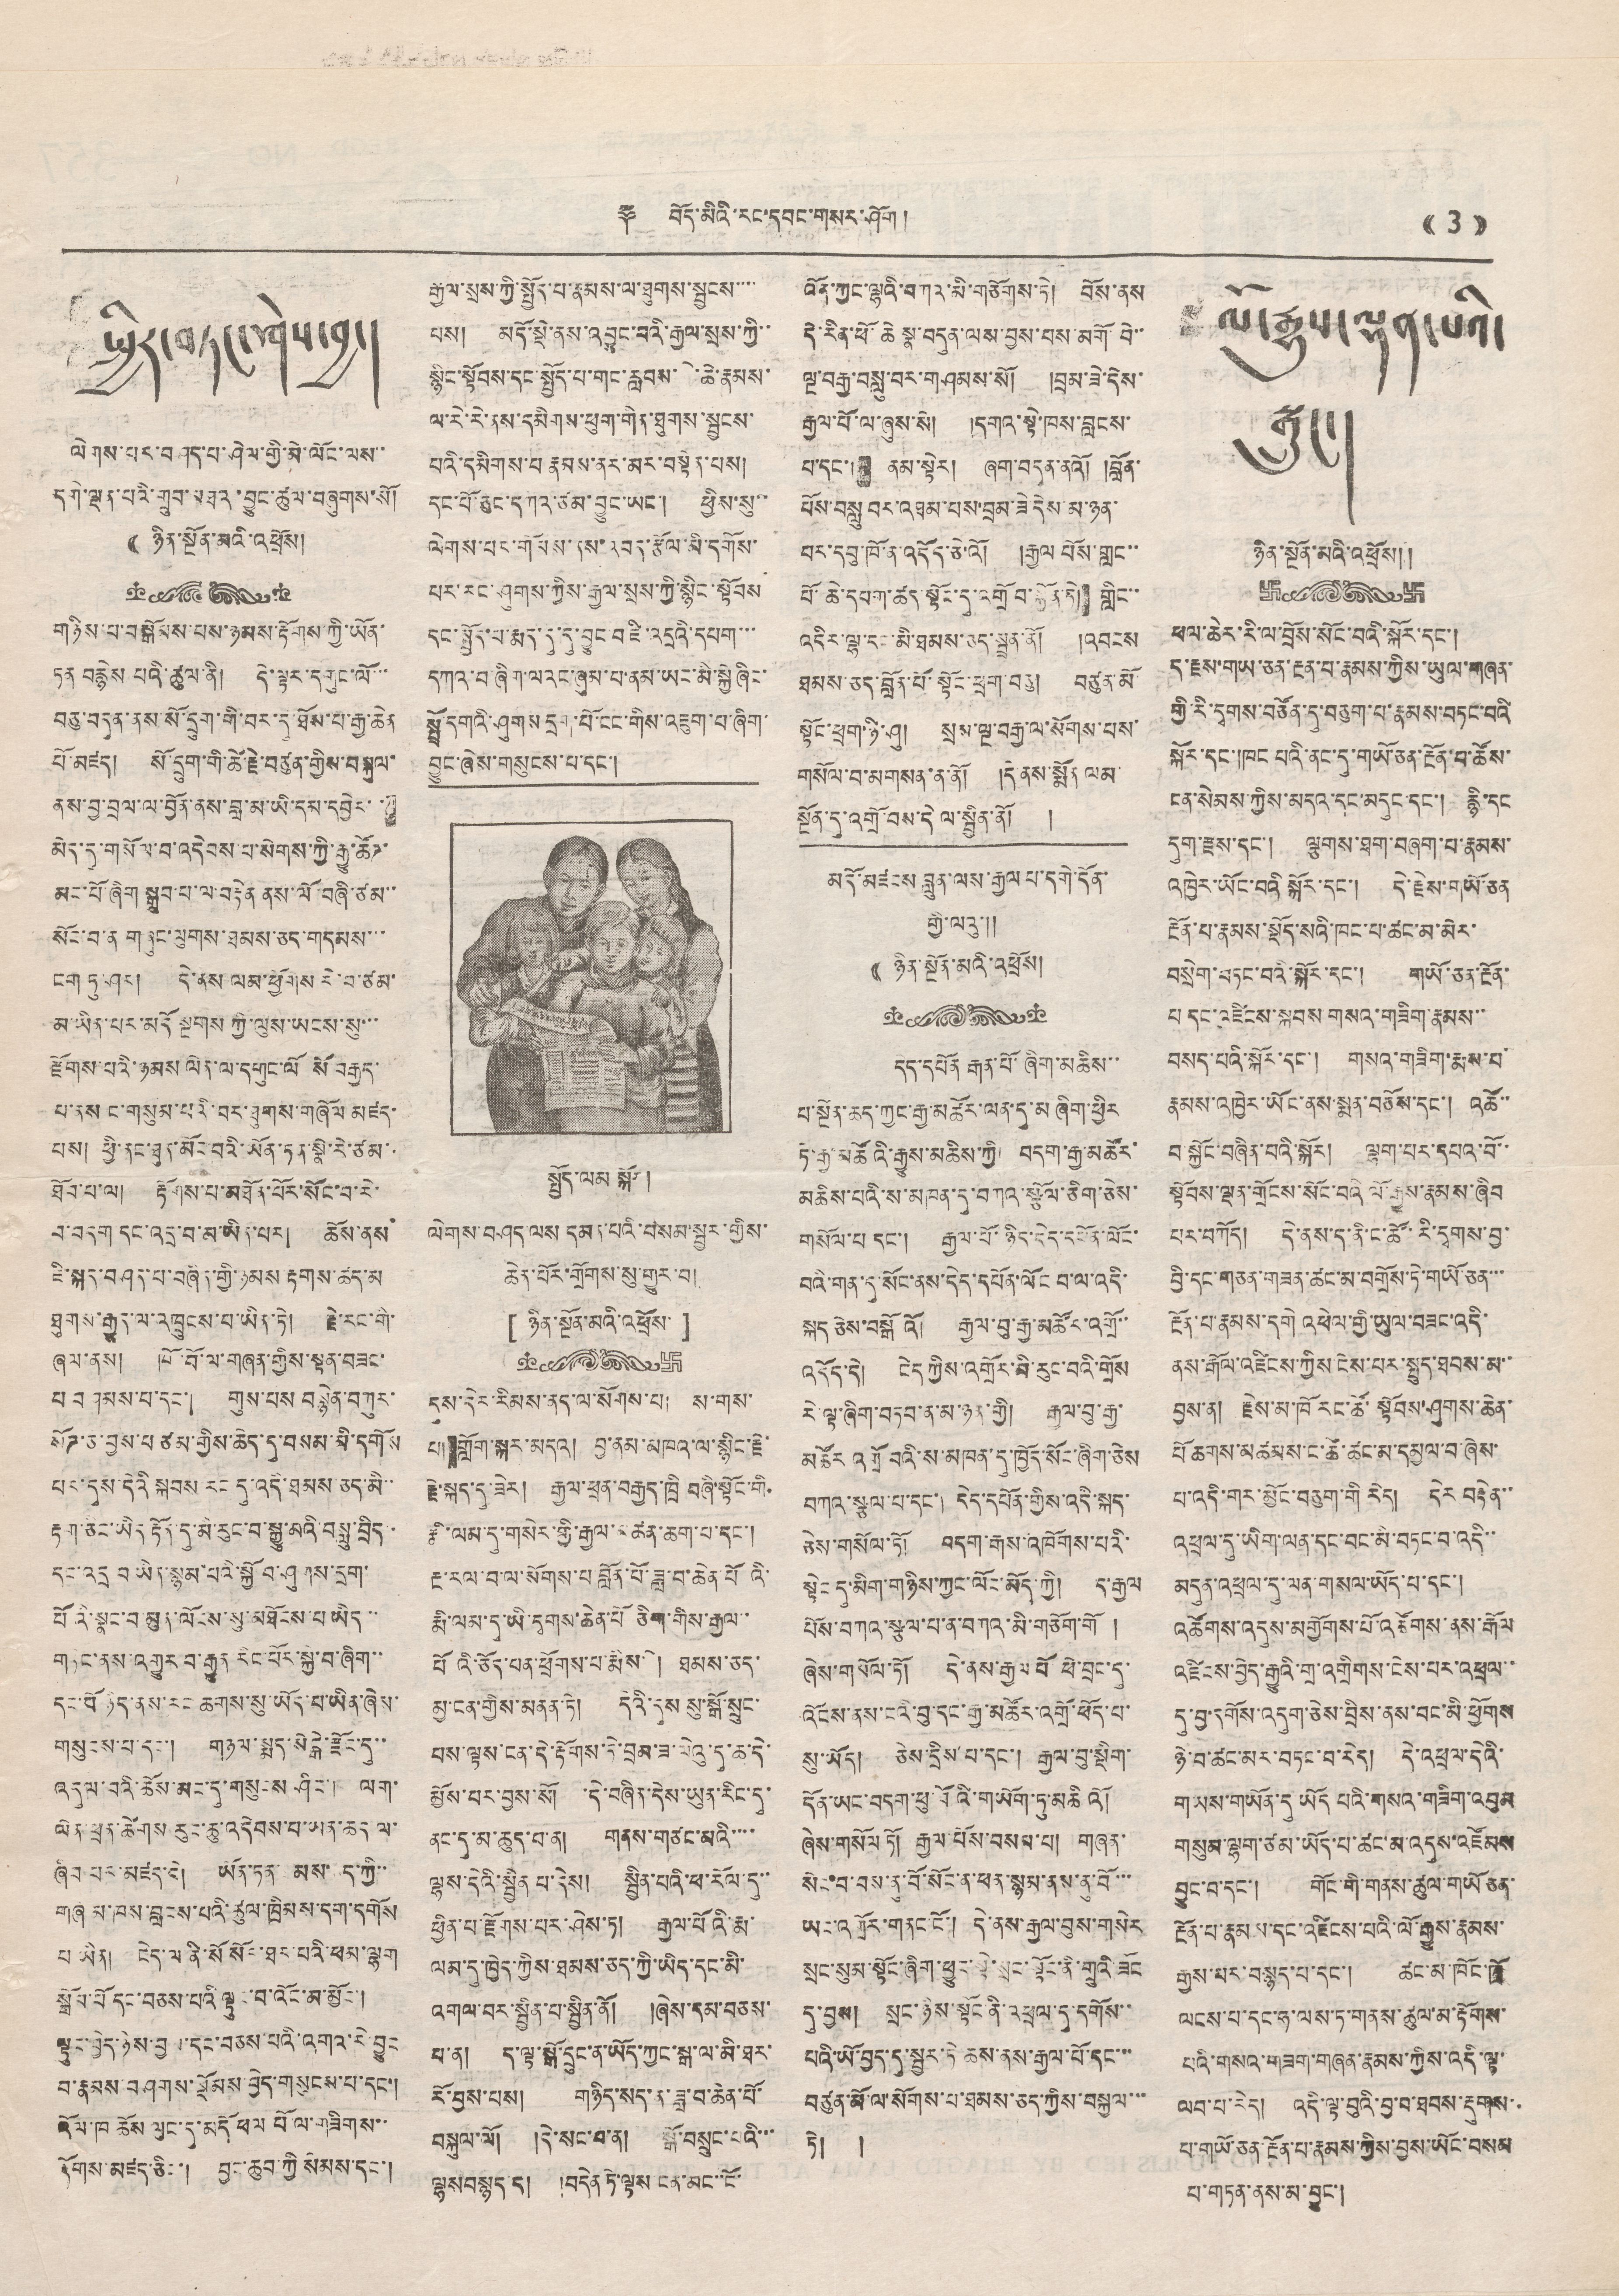༈ བོད་མིའི་རང་དབང་གསར་ཤོག ། (( 3 ))
སྤྱིར་བཏང་ཤེས་བྱ།
ལེགས་པར་བཤད་ཤེལ་གྱི་མེ་ལོང་ལས་་
དགེ་ལྡན་པའི་གྲུབ་མཐའ་བྱུང་ཚུལ་བཞུགས་སོ།
(( ཉིན་སྔོན་མའི་འཕྲོས།
གཉིས་པ་བསྒོམས་པས་ཉམས་རྟོགས་ཀྱི་ཡོན་
ཏན བརྙེད པའི་ཚུལ་ནི། དེ་ལྟར་དགུང་ལོ་་་
བཅུ་བདུན་ནས་སོ་དྲུག་གི་བར་དུ་ཐོས་པ་རྒྱ་ཆེན
པོ་མཛད། སོ་དྲུག་གི་ཚེ་རྗེ་བཙུན་གྱིས་བསྐུལ་
ནས་བྱ་བྲལ་ལ་བྱོན་ནས་བླ་མ་ཡི་དམ་དབྱེར་་
མེད་དུ་གསོལ་བ་འདེབས་པ་སེགས་ཀྱི་རྒྱུ་ཚོཌ་
མང་པོ་ཞིག སྒྲུབ་པ་ལ་བརྟེན ནས་ལོ་བཞི་ཙམ་་
སོང་བ་ན གཞུང་ལུགས་ཐམས་ཅད་གདམས་་་
ངག ཏུ་ཤར། དེ་ནས ལམ་ཕྱོགས རེ་བ་ཙམ་
མ་ཡིན་པར་མདོ སྔགས ཀྱི་ལུས་ཡངས་སུ་་་
རྫོགས་པའི་ཉམས ལེན་ལ་དགུང་ལོ སོ་བརྒྱད་
པ་ནས ང་གསུམ་པའི་བར་ཐུགས་གཞོལ མཛད་
པས། ཕྱི་ནང་ཐུན་མོང་བའི་ཡོན་ཏན་སྣེ་རེ་ཙམ་
ཐོབ་པ་ལ། རྟོགས་པ་མཐོན་པོར་སོང་བ་རེ་
བ་བདག དང་འདྲ་བ་མ་ཡིན་པར། ཆོས་ནས
ཇི་སྐད་བཤད་པ་བཞིན་གྱི་ཉམས རྟགས་ཚད་མ
ཐུགས་རྒྱུན་ལ་འཁྲུངས་པ་ཡིན་ཏེ། རྗེ་རང་གི་
ཞལ་ནས། ཁོ་བོ་ལ་གཞན་གྱིས་སྟན་བཟང་
པ བཤམས་པ་དང་། གུས་པས བསྙེན་བཀུར་
སོཌ་ཅ་བྱས་པ ཙམ་གྱིས་ཆེད་དུ་བསམ་མི་དགོས
པར་དུས་དེའི སྐབས རང་དུ་འདི་ཐམས་ཅད་མི་་
རྟག་ཅིང་ཡིད རྟོན་དུ་མི་རུང་བ་སྒྱུ་མའི་བསླུ་བྲིད
དང་འདྲ བ་ཡིད་སྙམ་པའི་སྐྱོ བ་ཤུགས་དྲག་
པོའི་སྣང་བ་མུན་ལོངས་སུ་མཐོངས་པ ཡིད་་
གཏོང་ནས་འགྱུར བ་རྒྱུན རིང་པོར་སྐྱེ་བ་ཞིག་་
དང་པོ ཉིད་ནས་རང ཆགས་སུ་ཡོད་པ་ཡིན་ཞེས་
གསུངས་པ་དང་། གཉལ་སྨད་སེངྒེ་རྫོང་དུ་་
འདུལ་བའི་ཆོས་མང་དུ་གསུངས ཤིང་། ལག་
ལེན་ཕྲན་ཚེགས རུང་ཆུ་འདེབས་པ་ཡན་ཆད ལ་
ཞིབ པར་མཛད་དེ། ཡོན་ཏན་ མས་ཆད་ཀྱི་་
གཞམ་ཁས་བླངས་པའི་ཚུལ་ཁྲིམས་དག་དགོས
པ ཡིན། ངེད་ལ ནི་སོ་སོར་ཐར་པའི་ཕམ་ལྷག
སྦོས་པོ དང་བཅས་པའི ལྟུང་བ་འོང་མ་མྱོང་།
ལྟུང་བྱེད་ཉེས་བྱས་དང་བཅས་པའི་འགའ་རེ་བྱུང
བ་རྣམས་བཤགས་སྡོམས་བྱེད་གསུངས་པ་དང་།
འོལ་ཁ ཆོས ལུང་དུ་མདོ ཕལ པོ་ལ་གཟིགས་་
རྟོགས་མཛད་ཅིང་། བྱང་ཆུབ་ཀྱི སེམས་དང་།
རྒྱས་སྲས་ཀྱི་སྤྱོད་པ་རྣམས་ལ་ཐུགས་སྦྱངས་་་་
པས། མདོ་སྡེ་ནས་འབྱུང་བའི་རྒྱལ་སྲས་ཀྱི་་
སྙིང་སྟོབས་དང་སྤྱོད་པ་གང་རླབས་ཆེ་ཆེ་རྣམས་
ལ་རེ་རེ་ནས་དམིགས་ཕུག་གིན་ཐུགས་སྦྱངས་
པའི་དམིགས་པ རྣམས་ནར་མར་བསྟེན་པས།
དང་པོ་ཅུང་དཀའ་ཙམ་བྱུང་ཡང་། ཕྱིས་སུ་་
ལེགས་པར་གོམས་ནས་འབད་རྩོལ་མི་དགོས་
པར་རང་ཤུགས་ཀྱིས་རྒྱལ་སྲས་ཀྱི་སྙིང་སྟོབས
དང་སྤྱོད་པ་རྨད་དུ་དུ་བྱུང་བ་ཇི་འདྲའི་དཔག་་་
དཀའ་བ་ཞིག་ལའང་ཞུམ་པ་ནམ་ཡང་མི་སྐྱེ ཞིང་
སྤྲོ་དགའི་ཤུགས དྲག་པོ་ངང་གིས་འཇུག་པ་ཞིག་
བྱུང་ཞེས་གསུངས་པ་དང་།
སྤྱོད་ལམ སྐོར།
ལེགས་བཤད་ལས དམན་པའི་བསམ་སྦྱར་གྱིས་
ཆེན་པོར་གྲོགས་སུ་གྱུར་བ།
[ ཉིན་སྔོན་མའི་འཕྲོས་ ]
དུས་དེར་རིམས་ནད་ལ་སོགས་པ། ས་གས་
པ། གློག་སྐར་མདའ། བྱ་ནམ་མཁའ་ལ་སྙིང་རྗེ་
རྗེ་སྐད་དུ་ཟེར། རྒྱལ་ཕྲན་བརྒྱད་ཁྲི བཞི་སྟོང་གི
རྨི་ལམ་དུ་གསེར་གྱི་རྒྱལ་མཚན་ཆག་པ་དང་།
རྔ་རལ་བ་ལ་སོགས་པ་བློན་པོ་ཟླ་བ་ཆེན་པོའི་
རྨི་ལམ་དུ་ཡི་དྭགས་ཆེན་པོ ཅིག་གིས་རྒྱལ་་
པོའི་ཅོད་པན་ཕྲོགས་པ་རྨིས་སི། ཐམས་ཅད་
མྱ་ངན་གྱིས་མནན་ཏེ། དེའི་དུས་སུ་སྒོ་སྲུང་
པས་ལྟས་ངན་དེ་རྟོགས་ཏེ་བྲམ་ཟ་ལེའུ་དུ་ཆ་དེ་
མྱོས་པར་བྱས་སོ། དེ་བཞིན་དེས་ཡུན་རིང་དུ་
ནང་དུ་མ་ཆུད་པ་ན། གནས་གཙང་མའི་་་་
ལྷས་དེའི་སྦྱིན པ་དེས། སྦྱིན་པའི་ཕ་རོལ་དུ་་
ཕྱིན་པ་རྫོགས་པར་ཤེས་ཏ། རྒྱལ་པོའི་རྨ་
ལམ་དུ་ཁྱེད་ཀྱིས་ཐམས་ཅད་ཀྱི་ཡིད་དང་མི་
འགལ་བར་སྦྱིན་པ་སྦྱིན་ནོ། །ཞེས་དམ་བཅས་
པ་ན། ད་ལྟ་སྒོ་དྲུང་ན་ཡོད་ཀྱང་སྒ་ལ་མི་ཐར་
རོ་བྱས་པས། གཉིད་སད་ན་ཟླ་བ་ཆེན་པོ་
བསྐུལ་ལོ། །དེ་སང་བ་ན། སྒོ་བསྲུང་པའི་་་
ལྷས བསྙད་ད། །བདེན ཏེ་ལྟས་ངན་མང་་ངོ་
འོན་ཀྱང་ལྷའི་བཀའ་མི་གཅོགས་ཏེ། བོས་ནས
དེ་རིན་ཕོ་ཆེ སྣ་བདུན་ལས་བྱས་པས་མགོ་བེ་་
ལྔ་བརྒྱ་བསླུ་བར་གཤམས་སོ། །བྲམ་ཟེ་དེས་
རྒྱལ་པོ་ལ་ཞུས་སོ། །དགའ་སྟེ་ཁས་བླངས་
པ་དང་། ནམ་སྟེར། ཞག་བདུན་ནའོ། །བློན་
པོས་བསླུ བར་འཐབ་པས་བྲམ་ཟེ་དེས་མ་ཉན་
པར་དབུ་ཁོ་ན་འདོད་ཅེ་འོ། །རྒྱལ པོས་གླང་་
པོ་ཆེ་དཔག་ཚད་སྟོང་དུ་འགྲོ བ་སྐྱོན་ཏེ། གླིང་་
འདིར་ལྷ་དང་མི་ཐམས་ཅད་སྦྲན་ནོ། །འབངས
ཐམས་ཅད་བློན་པོ་སྟོང་ཕྲན་བཅུ། བཙུན་མོ
སྟོང་ཕྲག་ཉི་ཤུ། སྲས་ལྔ་བརྒྱ་ལ་སོགས་པས་
གསོལ་བ་མ གསན་ན་ནོ། །དེ་ནས་སྨོན ལམ་
སྔོན་དུ་འགྲོ་བས་དེ ལ་སྦྱིན་ནོ། །
མདོ་མཛངས བླུན་ལས་རྒྱལ པ་དགེ་དོན་
གྱི་ལའུ་།།
(( ཉིན་སྔོན་མའི་འཕྲོས།
དེད་དཔོན རྒན་པོ་ཞིག་མཆིས་་
པ་སྔོན་ཆད་ཀྱང་རྒྱ་མཚོར་ལན་དུ་མ ཞིག་ཕྱིར
ཏེ་རྒྱ་མཚོའི་རྒྱུས་མཆིས་ཀྱི། བདག་རྒྱ་མཚོར་
མཆིས་པའི་ས་མཁན་དུ་བཀའ་སྩོལ་ཅིག་ཅེས་
གསོལ་པ དང་། རྒྱལ་པོ་ཉིད་དེད་དཔོན་ལོང་
བའི་གན་དུ་སོང་ནས་དེད་དཔོན་ལོང བ་ལ་འདི་
སྐད ཅེས་བསྒོ འོ། རྒྱལ་བུ་རྒྱ་མཚོར་འགྲོ་་
འདོད་དེ། ངེད ཀྱིས་འགྲོར་མི་རུང་བའི་གྲོས
རེ་ལྟ་ཞིག་བཏབ་ན་མ་ཉན་གྱི། རྒྱལ་བུ་རྒྱ་
མཚོར འགྲོ བའི་ས་མཁན་དུ་ཁྱོད་སོང་ཞིག་ཅེས
བཀའ་སྩལ་པ་དང་། དེད་དཔོན་གྱིས་འདི་སྐད་
ཅེས་གསོལ་ཏོ། བདག་རྒས་འཁོགས་པའི་
སྟེང་དུ་མིག་གཉིས་ཀྱང་ལོང་མོད་ཀྱི། ད་རྒྱལ
པོས་བཀའ་སྩལ་པ་ན་བཀའ་མི་གཅོག་གོ །
ཞེས་གསོལ་ཏོ། དེ་ནས་རྒྱལ པོ་ཕོ་བྲང་དུ་
འོངས་ནས་ངའི་བུ་དང་རྒྱ་མཚོར་འགྲོ་ཕོད་པ་
སུ་ཡོད། ཅེས་དྲིས་པ་དང་། རྒྱལ་བུ་སྡིག་
དོན་ཡང་བདག་ཕུ་བོའི་གཡོག་ཏུ་མཆིའོ།
ཞེས་གསོལ ཏོ། རྒྱལ་པོས་བསམ་པ། གཞན་
སེང་བ་བས་ནུ་བོ་སོང་ན་ཕན་སྙམ་ནས་ནུ་བོ་་་
ཡང་འགྲོར་གནང་ངོ་། དེ་ནས་རྒྱལ་བུས་གསེར
སྲང་སུམ་སྟོང་ཞིག་ཕྱུར་སྟེ་སྲང་སྟོང་ནི་གྲུའི་ཟོང
དུ་བྱས། སྲང་ཉིས་སྟོང་ནི་འཕྲལ་དུ་དགོས་་
པའི་ཡོ་བྱད་དུ་སྦྱར་ཏེ་ཆས་ནས་རྒྱལ་པོ་དང་་་
བཙུན་མོ་ལ་སོགས་པ་ཐམས་ཅད་ཀྱིས་བསྐྱལ་་་
ཏེ། །
ལོ་རྒྱུས་ལྡན་པའི་
སྒྲུང་།
ཉིན་སྔོན་མའི་འཕྲོས།།
ཕལ་ཆེར་རི་ལ་བྲོས་སོང་བའི་སྐོར་དང་།
ད་རྗས་གཡ་ཅན་རྔན་པ་རྣམས་ཀྱིས་ཡུལ་གཞན་
གྱི་རི་དྭགས་བཙོན་དུ་བཅུག་པ་རྣམས་བཏང་བའི་
སྐོར་དང་ཁང པའི་ནང་དུ་གཡོ་ཅན་རྔོན་བ་ཚོས་
ངན་སེམས་ཀྱིས་མདའ་དང་མདུན་དང་། རྙི་དང
དུག་རྗས་དང་། ལྕགས་ཐག་བཞག་པ་རྣམས་
འཁྱེར་ཡོང་བའི སྐོར་དང་། དེ་རྗེས་གཡོ་ཅན
རྔོན་པ་རྣམས་སྡོད་སའི་ཁང་པ་ཚང་མ་མེར་
བསྲེག་བཏང་བའི་སྐོར་དང་། གཡོ་ཅན་རྔོན་
པ དང་འཛིངས་སྐབས གསའ་གཟིག་རྣམས་་
བསད་པའི་སྐོར་དང་། གསའ་གཟིག་རྨས་པ་
རྣམས་འཁྱེར་ཡོང་ནས་སྨན་བཅོས་དང་། འཚོ་་
བ་སྐྱོང་བཞིན་པའི་སྐོར། ལྷག་པར་དཔའ་བོ་་
སྟོབས་ལྡན་གྲོངས་སོང་བའི ལོ་རྒྱུས་རྣམས་ཞིབ
པར་བཀོད། དེ་ནས་ད་ནི་ང་ཚོ་རི་དྭགས་བྱ་
བྱི་དང་གཅན་གཟན་ཚང་མ་བགྲོས་ཏེ་གཡོ་ཅན་་་
རྔོན་པ་རྣམས་དགེ འཕེལ་གྱི་ཡུལ་བཟང་འདི་
ནས་རྒོལ་འཛིངས་ཀྱིས་ངེས་པར་སྤུད་ཐབས་མ་་
བྱས་ན། རྗེས་མ་ཁོ རང་ཚོ་སྟོབས་ཤུགས་ཆེན་
པོ ཆགས་མཚམས་ང་ཚོ་ཚང་མ་དམྱལ་བ་ཞེས་
པ་འདི་གར་མྱོང་བཅུག་གི་རེད། དེར བརྟེན་་
འཕྲལ་དུ་ཡིག་ལན་དང་བང་མི་བཏང་བ་འདི་་
མདུན་འཕྲལ་དུ་ལན་གསལ་ཡོད་པ་དང་།
འཚོགས་འདུས་མགྱོགས་པོ་འཚོགས་ནས་རྒོལ
འཛིངས་བྱེད་རྒྱུའི་གྲ་འགྲིགས་ངེས་པར་འཕྲལ་་
དུ་བྱ་དགོས་འདུག་ཅེས་བྲིས་ནས་བང་མི་ཕྱོགས
ཉེ་བ་ཚང་མར་བཏང་བ་རེད། དེ་འཕྲལ་དེའི་
གཡས་གཡོན་དུ ཡོད པའི་གསའ་གཟིག་འབུམ
གསུམ་ལྷག་ཙམ་ཡོད་པ་ཚང་མ་འདུས་འཛོམས
བྱུང་བ་དང་། གོང་གི་གནས་ཚུལ་གཡོ ཅན་
རྔོན་པོ་རྣམས་དང་འཛིངས་པའི་ལོ་རྒྱུས་རྣམས་
རྒྱས་པར་བསྙད་པ་དང་། ཚང་མ་ཁོང་ཁྲོ
ལངས་པ་དང་ཧ་ལས་ར་གནས་ཚུལ་མ་རྟོགས་
པའི་གསའ་གཟག་གཞན་རྣམས་ཀྱིས་འདི་ལྟ་
ལབ་པ་རེད། འདི་ལྟ་བུའི་བྱ་བ་ཐབས་རྡུགས་
པ་གཡོ་ཅན་རྔོན་པ་རྣམས་ཀྱིས་བྱས་ཡོང་བསམ
པ་གཏན་ནས་མ་བྱུང་།
